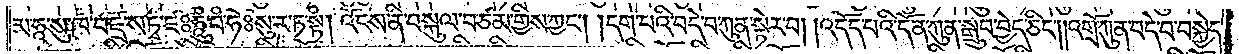མ་ཧཱ་སུ་ཁ་བཛྲ་སཏྭ་ཛཿཧཱུཾ་བཾ་ཧོཿསུ་ར་ཏ་སྟཾ། འོངས་ནི་བསྐུལ་བ་ཙམ་གྱིས་ཀྱང༌། །དག་པའི་བདེ་བ་ཀུན་སྟེར་བ། །འདོད་པའི་དོན་ཀུན་སྒྲུབ་བྱེད་ཅིང༌། །འགྲོ་ཀུན་བདེ་བ་བསྐྱེད་
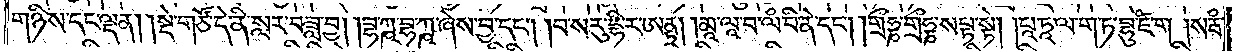གཉིས་དང་ལྡན། །སྡེ་གཙོ་དེ་ནི་སླར་བཟླ་བྱ། །བྷ་ཀྵ་བྷ་ཀྵ་ཞེས་བྱ་དང༌། །པ་ས་རུ་དྷི་ར་ཨནྟྲ། །མཱ་ལཱ་བ་ལཾ་བི་ནེ་དང༌། །གྲྀཧྞ་གྲྀཧྞ་སཔྟ་སྟེ། །པཱ་ཏཱ་ལ་ག་ཏ་བྷུ་ཛཾ་ག །སརྦཾ་
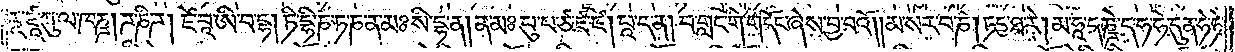རཱ་ཛཱ་ཀུ་ལ་ཁཎྜ། ཌ་ཎི་ཌ། ཛེ་བཱ་ཨི་བ་དྷ། ཏི་དྷི་ཎ་ཏ་ཎ་ན་མཿསི་དྷ་ན། ན་མཿ པུ་པ་ཙ་ཛ་ཛ། པཱ་ད་ན། བ་གླང་གི་གདོང་ཞེས་བྱ་བའོ། །མ་ས་ར་བ་ཎཾ། ཏདྱ་ཐ་རེ། མ་ཧཱ་དཎྜེ་ད་ཧ་ཧེ་དུ་ན་ཧེ་ཧེ་
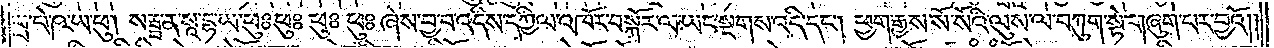པྲ་པེ་ཥ་ཡ་ཕུ། སརྦྦ་ན་སཱ་དྷ་ཡ་ཕུཿ ཕུཿ ཕུཿ ཕུཿ ཞེས་བྱ་བ་འདིས་དཀྱིལ་འཁོར་བསྐོར་ལ་ཡང་སྔགས་འདི་དང༌། ཕྱག་རྒྱས་སོ་སོའི་ལུས་ལ་བཀུག་སྟེ་གཞུག་པར་བྱའོ༎
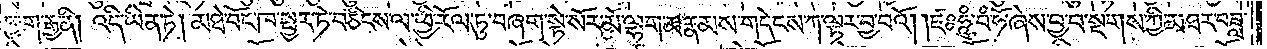ཕྱག་རྒྱ་ནི། འདི་ཡིན་ཏེ། མཐེ་བོང་ཁ་སྦྱར་ཏེ་བཅིངས་ལ་ཕྱི་རོལ་ཏུ་བཞག་སྟེ་སོར་མོ་ལྷག་མ་རྣམས་གདེངས་ཀ་ལྟར་བྱ་བའོ། །ཛཿཧཱུཾ་བཾ་ཧོ་ཞེས་བྱ་བ་སྔགས་ཀྱི་མཐར་བཟླ་
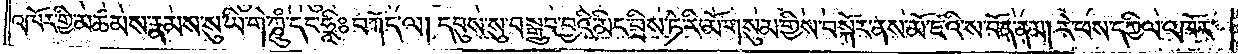འཁོར་གྱི་མཚམས་རྣམས་སུ་ཡི་གེ་ཀྵུཾ་དང་ཧྲཱིཿབཀོད་ལ། དབུས་སུ་བསྒྲུབ་བྱའི་མིང་བྲིས་ཏེ་རི་མོ་གསུམ་གྱིས་བསྐོར་ནས་མོ་ཛའི་ས་བོན་ནམ། རེ་ཕས་དཀྱིལ་འཁོར་
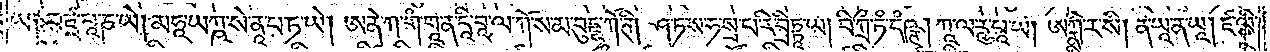ཡ༑ བཛྲ་པཱ་ཎ་ཡེ། མཧཱ་ཡཀྵ་སེ་ནཱ་པ་ཏ་ཡེ། ཨ་ནེ་ཀ་གཾ་གཱ་ན་དཱི་བཱ་ལ་ཀོ་ས་མ་བུདྡྷ་ཀོ་ཊི། ཤ་ཏ་ས་ཧ་སྲ་པ་རི་བྲིཏྟཱ་ཡ། བི་ཀྲྀ་ཏཾ་དཾཥྚ། ཀཱ་ལ་རཱུ་པཱ་ཡ། ཨཀྣི་ར་སི། ན་ཡཱ་ན་ཡཱ། ཛ་ལི་
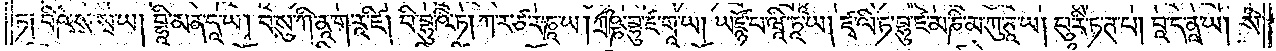ཏ༑ བི་ཥེ་ས་སྭ་ཡ། བྷཱི་མན་དཱ་ཡ། བ་སུ་ཀི་ནཱ་ག་རཱ་ཛི། བི་བྷུ་ཥི་ཏ། ཀ་ར་ཙ་ར་ཎཱ་ཡ། ཀྲྀཥྞ་བྷུ་ཛ་གཱ་ཡ། ཡཛྙོ་པ་ཝཱི་ཏཱ་ཡ། ཛྭ་ལི་ཏ་བྷུ་ཛ་མ་ཎི་མ་ཀུ་ཊཱ་ཡ། པུ་རི་ཏ་ཊ་པ། བཱ་ད་ནཱ་ཡ། སཾ་
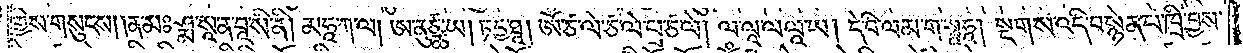གྱིས་གསུངས། །ན་མཿ ཤྨ་སཱ་ན་བཱ་སི་ནི། མཧཱ་ཀ་ལ། ཨ་ནུཙྪ་ཡ། ཏ་དྱ་ཐཱ། ཨོཾ་ཙ་ལེ་ཙ་ལེ་པྲ་ཙ་ལེ། ལ་ལཱ་ལ་ལཱ་ཡ། དེ་བི་ལམ་ག་སྭཱ་ཧཱ། སྔགས་འདི་བསྙེན་པ་ཁྲི་བྱས་
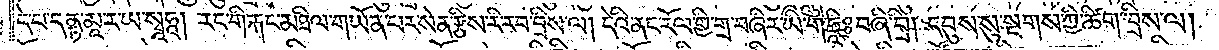དེ་པ་དནྟ་མཱ་ར་ཡ་སྭཱ་ཧཱ། རང་གི་རྐང་མཐིལ་གཡོན་པར་སེན་རྩིས་རི་རབ་བྲིས་ལ། དེའི་ནང་རོལ་གྱི་གྲ་བཞིར་ཡི་ག་ཧྲཱིཿ བཞི་བྲི། དབུས་སུ་སྔགས་ཀྱི་ཆིག་བྲིས་ལ། །
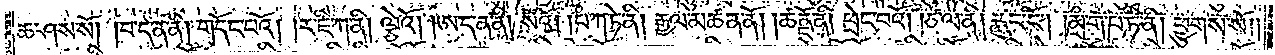ཆ་ཤས་སོ། །བ་ད་ན་ནི། གདོང་པའོ། །ར་ཛི་ཀ་ནི། ལྕེའོ། །ཨད་ན་ནི། སོའོ། །པཾ་ཀ་ཏེ་ནི། རྒྱལ་མཚན་ནོ། །ཚནྡོ་ནི། ཕྲེང་བའོ། །ཙ་ལ་ནི། རླུང་ངོ༌། །མྲྀ་ག་པ་ཏི་ནི། ཕྱུགས་སོ། །
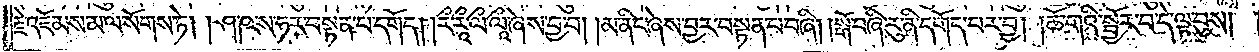རྗེ་འཇོམས་མ་ལ་སོགས་ཏེ། །ཤ་ཥ་ས་ཧར་བསྟན་པ་དགོད། །རྀ་རཱྀ་ལྀ་ལཱྀ་ཞེས་བྱ་བ། །མ་ནིང་ཞེས་བྱར་བསྟན་པ་བཞི། །སྒོ་བཞི་རུ་ནི་དགོད་པར་བྱ། །ཆོ་གའི་སྦྱོར་བདེ་ལྟ་བུས། །
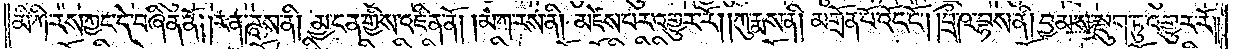མི་ཀི་རས་ཀྱང་དེ་བཞིན་ནོ། །རན་ཌཱས་ནི། མྱ་ངན་གྱིས་འཛིན་ནོ། །མ་ཀ་རས་ནི། མཛེས་པར་འགྱུར་རོ། །ཀུ་རྨས་ནི། མགྲོན་པོ་འོང་ངོ༌། །བྲྀ་ཥ་བྷས་ནི། བྱམས་སྡུག་ཏུ་འགྱུར་རོ༎
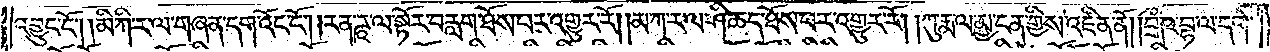འབྱུང་ངོ༌། །མི་ཀི་ར་ལ་གཞན་དག་འོང་ངོ༌། །རན་ཌཱ་ལ་སྟོར་བརླག་ཐོས་པར་འགྱུར་རོ། །མ་ཀ་ར་ལ་ཤི་ཆད་ཐོས་པར་འགྱུར་རོ། །ཀུརྨ་ལ་མྱ་ངན་གྱིས་འཛིན་ནོ། །པྲྀ་ཥ་བྷ་ལ་དགེ་
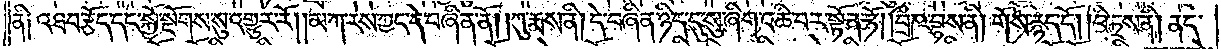ནི༑ འཐབ་རྩོད་དང་སྐྱོ་སྔོགས་སུ་འགྱུར་རོ། །མ་ཀ་རས་ཀྱང་དེ་བཞིན་ནོ། །ཀུ་རྨས་ནི། དེ་བཞིན་ཉིད་དུ་སུ་ཞིག་འཆི་བར་སྟོན་ཏོ། །བྲྀཥ་བྷས་ནི། གོས་རྙེད་དོ། །བི་ཏྲས་ནི། ནད་
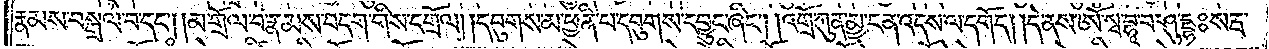རྣམས་བསྒྲལ་བ་དང༌། །མ་གྲོལ་བ་རྣམས་བདག་གིས་དགྲོལ། །དབུགས་མ་ཕྱིན་པ་དབུགས་དབྱུང་ཞིང༌། །འགྲོ་ཀུན་མྱ་ངན་འདས་ལ་དགོད། །དེ་ནས་ཨོཾ་སྭ་བྷཱ་བ་ཤུདྡྷཿསརྦ་
